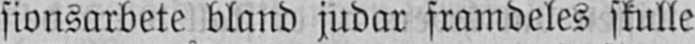sionsarbete bland judar framdeles skulle
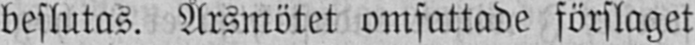beslutas. Årsmötet omfattade förslaget
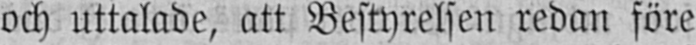och uttalade, att Bestyrelsen redan före
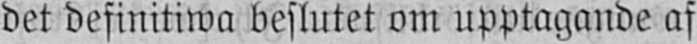det definitiwa beslutet om upptagande af
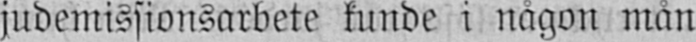judemissionsarbete kunde i någon mån
